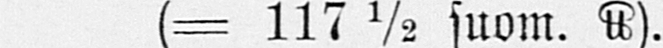(= 117 ½ suom. U+2114).
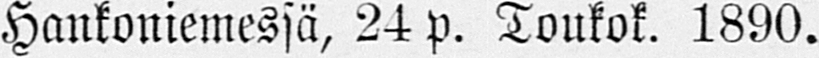Hankoniemessä, 24 p. Toukok. 1890.
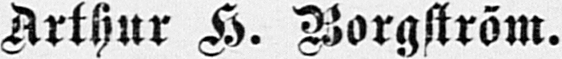Arthur A. Borgström.
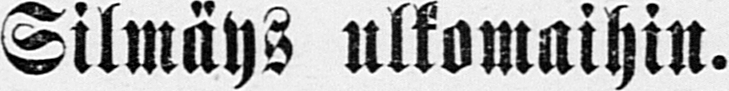Silmäys ulkomaihin.
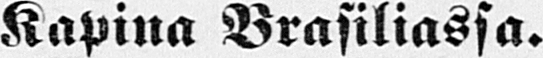Kapina Brasiliassa.
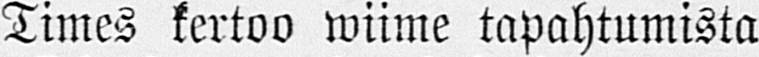Times kertoo wiime tapahtumista
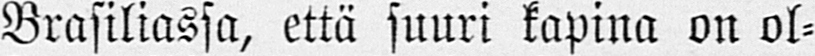Brasiliassa, että suuri kapina on ol-
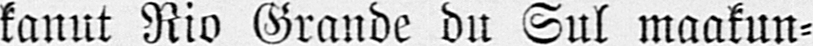kanut Rio Grande du Sul maakun-
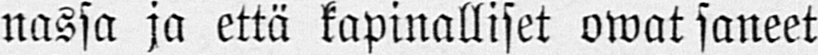nassa ja että kapinalliset owat saneet
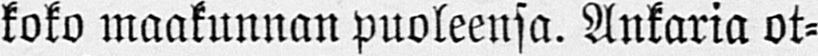koko maakunnan puoleensa. Ankaria ot-
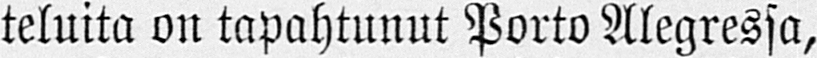teluita on tapahtunut Porto Alegressa,
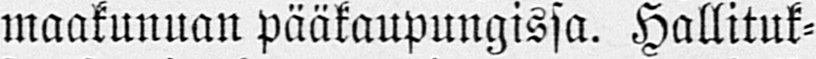maakunnan pääkaupungissa. Hallituk-
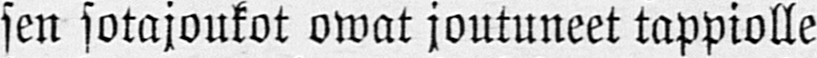sen sotajoukot owat joutuneet tappiolle
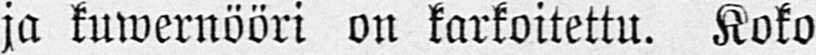ja kuwernööri on kartoitettu. Koko
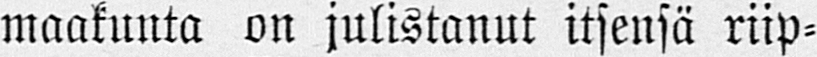maakunta on julistanut itsensä riip-
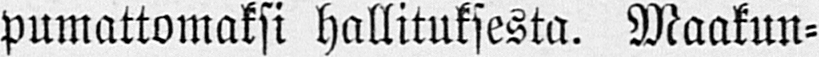pumattomaksi hallituksesta. Maakun-
